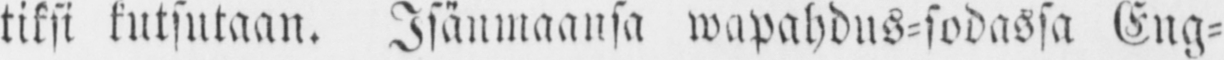tiksi kutsutaan. Isänmaansa wapahdus-sodassa Eng-
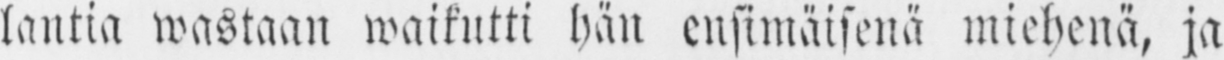lantia wastaan waikutti hän ensimäisenä miehenä, ja
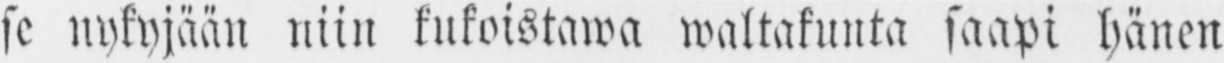se nykyjään niin kukoistawa waltakunta saapi hänen
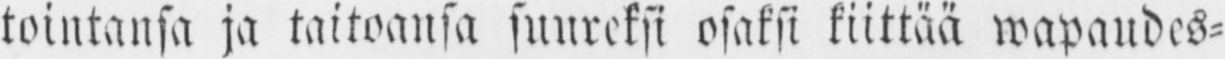tointansa ja taitoansa suureksi osaksi kiittää wapaudes-
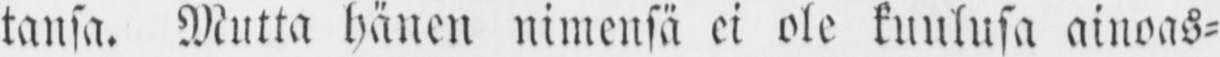tansa. Mutta hänen nimensä ei ole kuulusa ainoas-
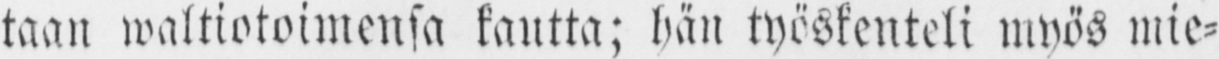taan waltiotoimensa kautta; hän työskenteli myös mie-
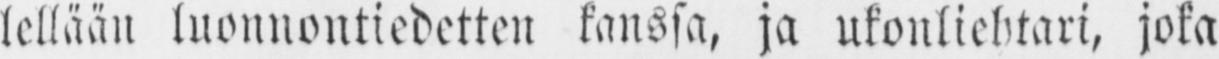lellään luonnontiedetten kanssa, ja ukonliehtari, joka
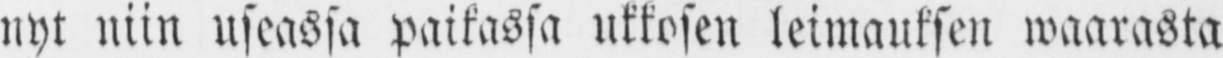nyt niin useassa paikassa ukkosen leimauksen waarasta
